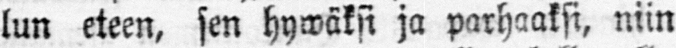lun eteen, sen hywäksi ja parhaaksi, niin
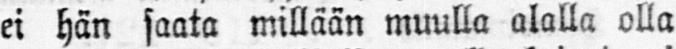ei hän saata millään muulla alalla olla
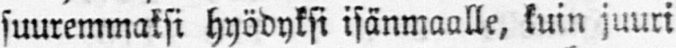suuremmaksi hyödyksi isänmaalle, kuin juuri
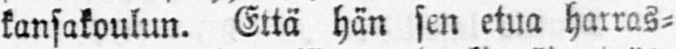kansakoulun. Että hän sen etua harras-
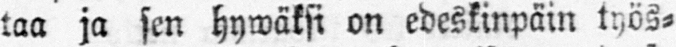taa ja sen hywäksi on edeskinpäin työs-
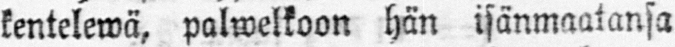kentelewä, palwelkoon hän isänmaatansa
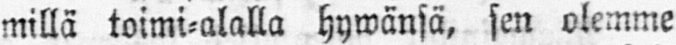millä toimi-alalla hywänsä, sen olemme
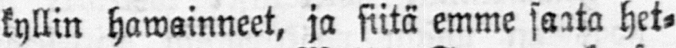kyllin hawainneet, ja siitä emme saata het-
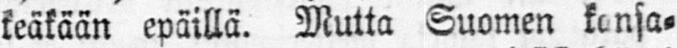keäkään epäillä. Mutta Suomen kansa-
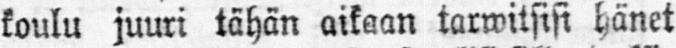koulu juuri tähän aikaan tarwitsisi hänet
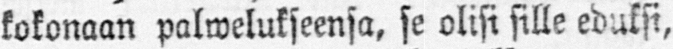kokonaan palwelukseensa, se olisi sille eduksi,
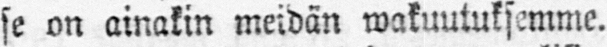se on ainakin meidän wakuutuksemme.
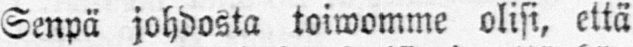Senpä johdosta toiwomme olisi, että
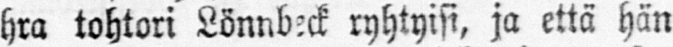hra tohtori Lönnbeck ryhtyisi, ja että hän
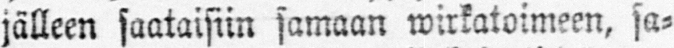jälleen saataisiin samaan wirkatoimeen, sa-
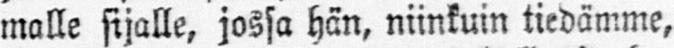malle sijalle, jossa hän, niinkuin tiedämme,
